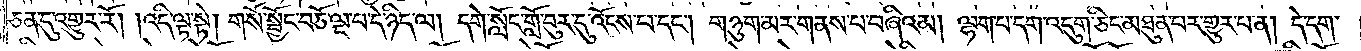ཅན་དུ་འགྱུར་རོ། །འདི་ལྟ་སྟེ། གསོ་སྦྱོང་བཅོ་ལྔ་པ་དེ་ཉིད་ལ། དགེ་སློང་གློ་བུར་དུ་འོངས་པ་དང༌། གཉུག་མར་གནས་པ་བཞིའམ། ལྷག་པ་དག་འདུག་ཅིང་མཐུན་པར་གྱུར་པ་ན། དེ་དག་
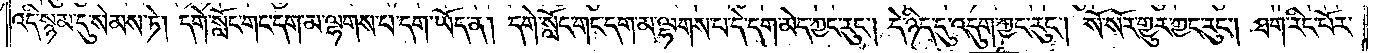འདི་སྙམ་དུ་སེམས་ཏེ། དགེ་སློང་གང་དག་མ་ལྷགས་པ་དག་ཡོད་ན། དགེ་སློང་གང་དག་མ་ལྷགས་པ་དེ་དག་མེད་ཀྱང་རུང༌། དེ་ཉིད་དུ་འདུག་ཀྱང་རུང༌། སོ་སོར་གྱུར་ཀྱང་རུང༌། ཐག་རིང་པོར་
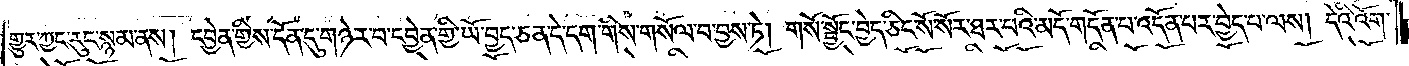གྱུར་ཀྱང་རུང་སྙམ་ནས། དབྱེན་གྱིས་དོན་དུ་གཉེར་བ་དབྱེན་གྱི་ཡོ་བྱད་ཅན་དེ་དག་གིས་གསོལ་བ་བྱས་ཏེ། གསོ་སྦྱོང་བྱེད་ཅིང་སོ་སོར་ཐར་པའི་མདོ་གདོན་པ་འདོན་པར་བྱེད་པ་ལས། དེའི་འོག་
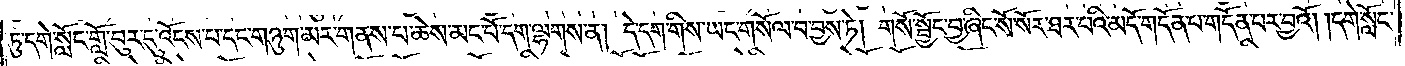ཏུ་དགེ་སློང་གློ་བུར་དུ་འོངས་པ་དང་གཉུག་མར་གནས་པ་ཆེས་མང་པོ་དག་ལྷགས་ན། དེ་དག་གིས་ཡང་གསོལ་བ་བྱས་ཏེ། གསོ་སྦྱོང་བྱ་ཞིང་སོ་སོར་ཐར་བའི་མདོ་གདོན་པ་གདོན་པར་བྱའོ། །དགེ་སློང་
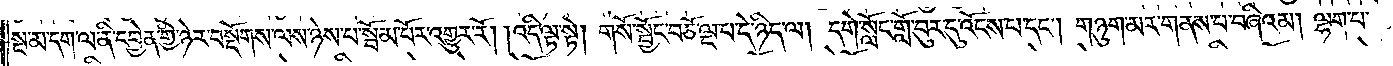སྔ་མ་དག་ལ་ནི་དབྱེན་གྱི་ཉེར་བསྡོགས་ལས་ཉེས་པ་སྦོམ་པོར་འགྱུར་རོ། །འདི་ལྟ་སྟེ། གསོ་སྦྱོང་བཅོ་ལྔ་པ་དེ་ཉིད་ལ། དགེ་སློང་གློ་བུར་དུ་འོངས་པ་དང༌། གཉུག་མར་གནས་པ་བཞིའམ། ལྷག་པ་
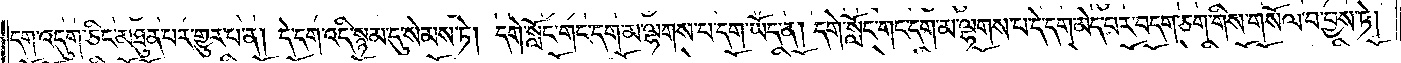དག་འདུག་ཅིང་མཐུན་པར་གྱུར་པ་ན། དེ་དག་འདི་སྙམ་དུ་སེམས་ཏེ། དགེ་སློང་གང་དག་མ་ལྷགས་པ་དག་ཡོད་ན། དགེ་སློང་གང་དག་མ་ལྷགས་པ་དེ་དག་མེད་པར་བདག་ཅག་གིས་གསོལ་བ་བྱས་ཏེ།
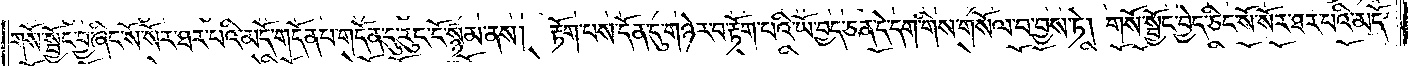གསོ་སྦྱོང་བྱ་ཞིང་སོ་སོར་ཐར་པའི་མདོ་གདོན་པ་གདོན་དུ་རུང་ངོ་སྙམ་ནས། རྟོག་པས་དོན་དུ་གཉེར་བ་རྟོག་པའི་ཡོ་བྱད་ཅན་དེ་དག་གིས་གསོལ་བ་བྱས་ཏེ། གསོ་སྦྱོང་བྱེད་ཅིང་སོ་སོར་ཐར་པའི་མདོ་
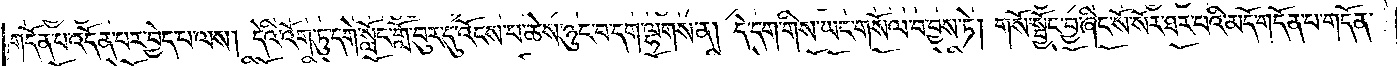གདོན་པ་འདོན་པར་བྱེད་པ་ལས། དེའི་འོག་ཏུ་དགེ་སློང་གློ་བུར་དུ་འོངས་པ་ཆེས་ཉུང་བ་དག་ལྷགས་ན། དེ་དག་གིས་ཡང་གསོལ་བ་བྱས་ཏེ། གསོ་སྦྱོང་བྱ་ཞིང་སོ་སོར་ཐར་པའི་མདོ་གདོན་པ་གདོན་
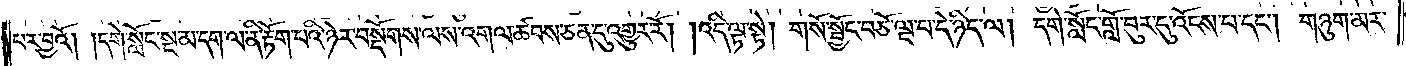པར་བྱའོ། །དགེ་སློང་སྔ་མ་དག་ལ་ནི་རྟོག་པའི་ཉེར་བསྡོགས་ལས་འགལ་ཚབས་ཅན་དུ་འགྱུར་རོ། །འདི་ལྟ་སྟེ། གསོ་སྦྱོང་བཅོ་ལྔ་པ་དེ་ཉིད་ལ། དགེ་སློང་གློ་བུར་དུ་འོངས་པ་དང༌། གཉུག་མར་
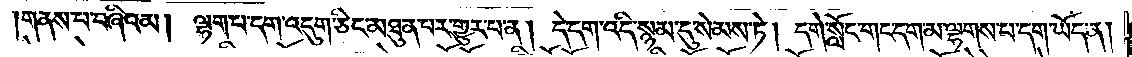གནས་པ་བཞིའམ། ལྷག་པ་དག་འདུག་ཅིང་མཐུན་པར་གྱུར་པ་ན། དེ་དག་འདི་སྙམ་དུ་སེམས་ཏེ། དགེ་སློང་གང་དག་མ་ལྷགས་པ་དག་ཡོད་ན།
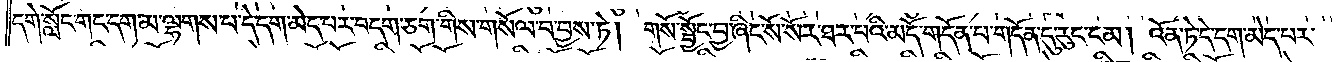དགེ་སློང་གང་དག་མ་ལྷགས་པ་དེ་དག་མེད་པར་བདག་ཅག་གིས་གསོལ་བ་བྱས་ཏེ། གསོ་སྦྱོང་བྱ་ཞིང་སོ་སོར་ཐར་པའི་མདོ་གདོན་པ་གདོན་དུ་རུང་ངམ། འོན་ཏེ་དེ་དག་མེད་པར་
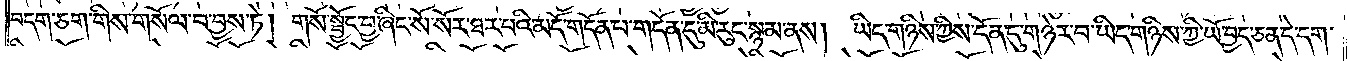བདག་ཅག་གིས་གསོལ་བ་བྱས་ཏེ། གསོ་སྦྱོང་བྱ་ཞིང་སོ་སོར་ཐར་པའི་མདོ་གདོན་པ་གདོན་དུ་མི་རུང་སྙམ་ནས། ཡིད་གཉིས་ཀྱིས་དོན་དུ་གཉེར་བ་ཡིད་གཉིས་ཀྱི་ཡོ་བྱད་ཅན་དེ་དག་
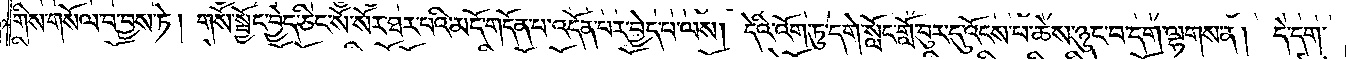གིས་གསོལ་བ་བྱས་ཏེ། གསོ་སྦྱོང་བྱེད་ཅིང་སོ་སོར་ཐར་པའི་མདོ་གདོན་པ་འདོན་པར་བྱེད་པ་ལས། དེའི་འོག་ཏུ་དགེ་སློང་གློ་བུར་དུ་འོངས་པ་ཆེས་ཉུང་བ་དག་ལྷགས་ན། དེ་དག་
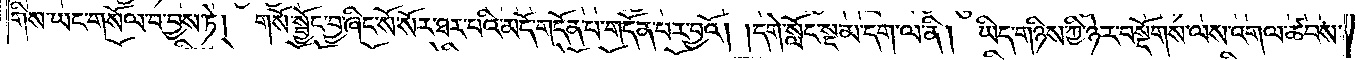གིས་ཡང་གསོལ་བ་བྱས་ཏེ། གསོ་སྦྱོང་བྱ་ཞིང་སོ་སོར་ཐར་པའི་མདོ་གདོན་པ་གདོན་པར་བྱའོ། །དགེ་སློང་སྔ་མ་དག་ལ་ནི། ཡིད་གཉིས་ཀྱི་ཉེར་བསྡོགས་ལས་འགལ་ཚབས་
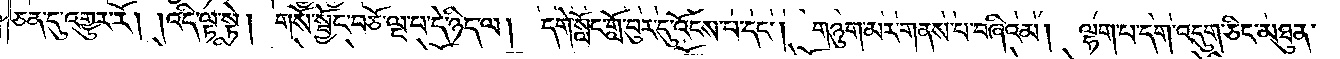ཅན་དུ་འགྱུར་རོ། །འདི་ལྟ་སྟེ། གསོ་སྦྱོང་བཅོ་ལྔ་པ་དེ་ཉིད་ལ། དགེ་སློང་གློ་བུར་དུ་འོངས་པ་དང༌། གཉུག་མར་གནས་པ་བཞིའམ། ལྷག་པ་དག་འདུག་ཅིང་མཐུན་
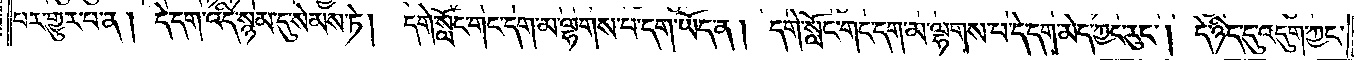པར་གྱུར་པ་ན། དེ་དག་འདི་སྙམ་དུ་སེམས་ཏེ། དགེ་སློང་གང་དག་མ་ལྷགས་པ་དག་ཡོད་ན། དགེ་སློང་གང་དག་མ་ལྷགས་པ་དེ་དག་མེད་ཀྱང་རུང༌། དེ་ཉིད་དུ་འདུག་ཀྱང་
